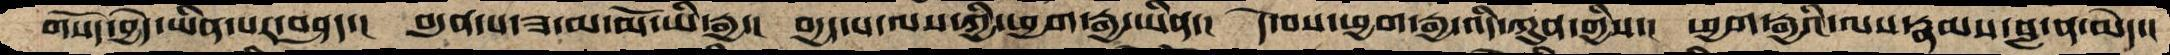གསོད་བྱེད་ཡིན་པར་བཤད་།  བདུན་པ་ཟ་མ་མོ་ཡི་རྒྱ་།  བདྱད་པ་ལས་ཀྱི་ཕྱག་རྒྱ་ཡིན་།  དེ་བས་ཕྱག་རྒྱ་འདི་ཀུན་གྱིས་།  ཕྱག་རྒྱའི་ལས་རྣམས་བླ་ན་མེད་།
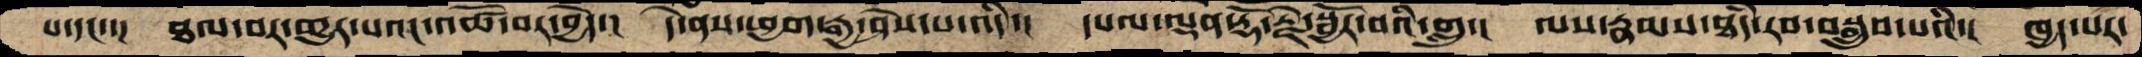པ་དང་་།  ཐལ་བར་གྱུར་པའང་འཚོ་བར་བྱེད་།  དེ་ནས་ཕྱག་རྒྱ་ཤེས་པ་འདི་།  དཔལ་ལྡན་རྡོ་རྗེ་སྦྱོར་བའི་གླུ་།  ལས་རྣམས་ཐཾད་རབ་བསྒྲུབ་པའི་།  ཁྱད་པར་
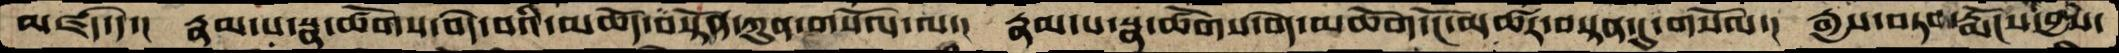མཛད་དེ་།  རྣམ་པ་སྣ་ཚོགས་བདེ་བའི་མཆོད་བསྟོན་ཀུན་གསོལ་ལ་།  རྣམ་པ་སྣ་ཚོགས་བདེ་མཆོག་ངོ་མཚར་བསྟན་དུ་གསོལ་།  རྒྱས་བཏབ་རྨོངས་བྱས་
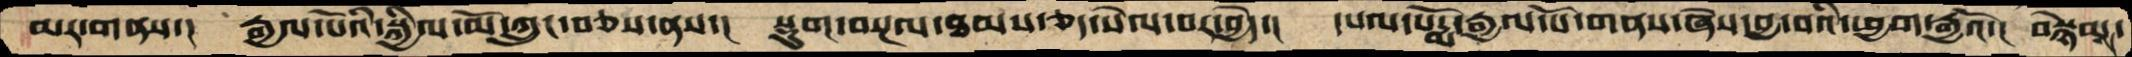མར་གནས་།  རྒྱལ་པོའི་སྐྱིལ་མོ་ཀྲུང་བཅས་ནས་།  སྡུག་བསྔལ་ཐམས་ཅད་སེལ་བར་བྱེད་།  དཔལ་པདྨོ་རྒྱལ་པོ་གནས་ཞེས་བྱ་བའི་ཕྱག་རྒྱའོ་།  བསྙེམས་
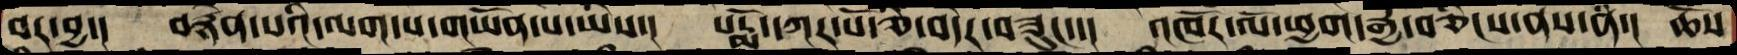བར་བྱ་།  བརྙན་པའི་ལག་པ་གཡོན་པ་ཡིས་།  པདྨོ་དཀར་པོ་ཅི་བདེར་བཟུང་་།  འཁོར་ལོ་ཕྱག་རྒྱ་བཅིངས་ནས་ནི་།  ཆོས
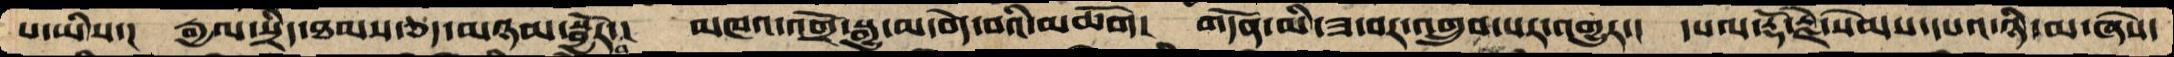པ་ཡིས་། རྒྱལ་སྲིད་ཐམས་ཅད་མཉམ་སྦྱོར་བ་། མཁའ་འགྲོ་སྒྱུ་མ་བདེ་བའི་མཆོག། གདོན་མི་ཟ་བར་འགྲུབ་པར་འགྱུར་། དཔལ་རྡོ་རྗེ་སེམས་དཔའ་ཉི་མ་ཞེས་
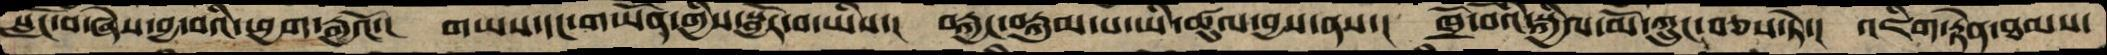སླིང་བ་ཞེས་བྱ་བའི་ཕྱག་རྒྱའོ་།  གཡས་དང་གཡོན་གྱིས་སྦྱོར་བ་ཡིས་།  བརྐྱང་བརྐུམ་པ་ཡི་ཚུལ་བྱས་ནས་།  ཁྲོ་བོའི་སྐྱིལ་མོ་ཀྲུང་བཅས་ཏེ་།  འཇིག་རྟེན་ཐམས་
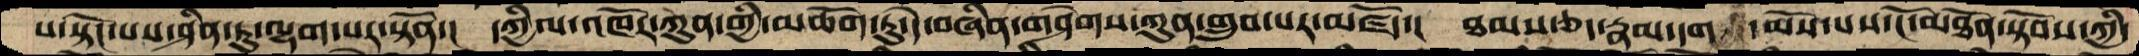པ་སྟོང་པས་ཤིན་ཏུ་ལྷག་པར་སྟོན་།  དཀྱིལ་འཁོར་ཀུན་གྱི་མཆོག་ཏུ་དེ་བཞིན་གཤེགས་ཀུན་གྲུབ་པར་མཛོད་།  ཐམས་ཅད་རྣམ་དག  ་མོས་པས་ངོ་མཐོན་སྟོབས་ཀྱི་
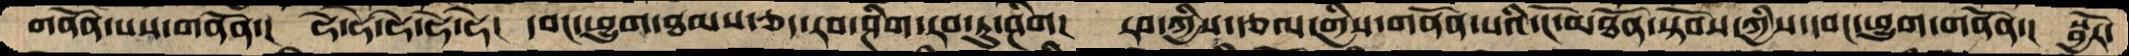གནོན་པས་གནོན་།  ཧེ་ཧེ་ཧེ་ཧེ་ཧེ།  དབང་ཕྱུག་ཐམས་ཅད་རབ་ཤིག་རབ་ཏུ་ཤིག།  རབ་ཀྱིས་རྩལ་གྱིས་གནོན་པའི་ངོ་མཐོན་སྟོབས་ཀྱིས་དབང་ཕྱུག་གནོན་།  སྦྱོར་
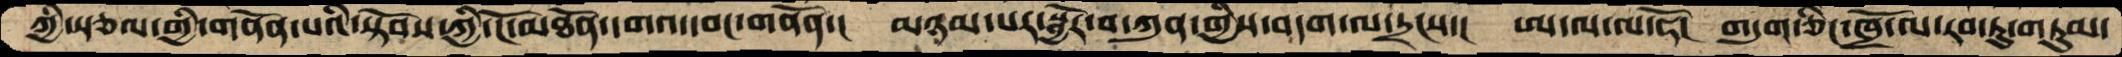ཀྱི་སྩལ་གྱི་གནོན་པའི་སྟོབས་ཀྱི་ངོ་མཐོན་དགའ་དབང་གནོན་།  མཉམ་པར་སྦྱོར་བ་ཀུན་གྱིས་བདག་ལ་དྲངས་།  ཨ་ལ་ལ་ཧོ།  གདུག་ཅིང་ཁྲོ་ལ་རབ་ཏུ་གཏུམ་
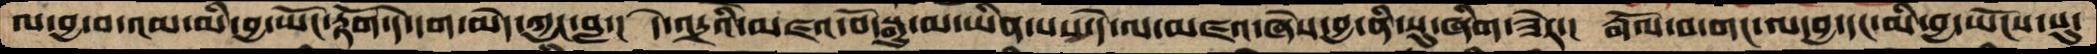ལ་བྱ་བ་འམ་མི་བྱ་ཡོང་རྟོག་དེ་དག་མེད་ཀྱང་བླ་།  དེ་འདྲའི་མཛའ་བོ་སྒྱུ་མ་ཡིན་པས་དེ་ལ་མཛའ་ཞེས་བྱ་ནི་སུ་ཞིག་ཟེར་།  རྒོལ་བ་གང་ལ་བྱ་དང་མི་བྱ་ཡོངས་སུ་
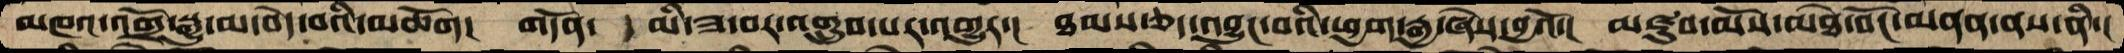མཁའ་འགྲོ་སྒྱུ་མ་བདེ་བའི་མཆོག། གདོན་  མི་ཟ་བར་འགྲུབ་པར་འགྱུར་། ཐམས་ཅད་འབྱུང་བའི་ཕྱག་རྒྱ་ཞེས་བྱའོ་། མཛུབ་མོས་མཐེ་བོང་མནན་ནས་ནི་།
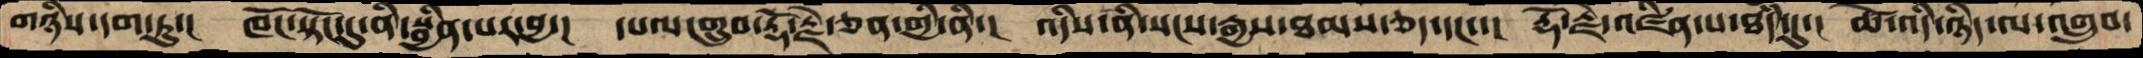གཉིས་དག་ཏུ་།  ཁོང་སྟོང་དུ་ནི་སྦྱིན་པར་བྱ་།  དཔལ་གྲུབ་རྡོ་རྗེ་ཅན་གྱི་ནི་།  འདིས་ནི་སངས་རྒྱས་ཐམས་ཅད་དང་་།  རྡོ་རྗེ་འཛིན་པ་ཐདཾ་དུ་།  ཚེ་འདི་ཉིད་ལ་འགྲུབ་
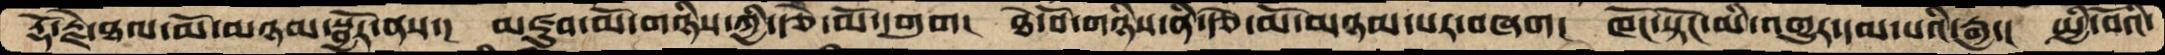རྡོ་རྗེ་ཐལ་མོ་མཉམ་སྦྱོར་ནས་།  མཛུབ་མོ་གཉིས་ཀྱི་རྩེ་མོ་དགུག།  ཐེ་བོ་གཉིས་ནི་རྩེ་མོ་མཉམ་པར་བཞག།  ཁོང་སྟོང་མི་འགྱུར་དམ་པའི་རྒྱ་།  སྤྱི་བོའི་
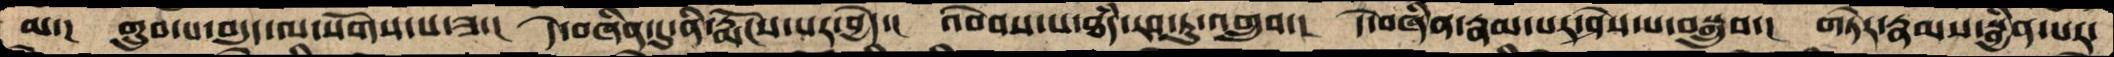མ་།  གྲུབ་པ་བདུད་ལ་སོགས་པ་ཟ་།  དེ་བཞིན་དུ་ནི་རྨོངས་པར་བྱེད་།  འབེབས་པ་ཐདཾ་རབ་ཏུ་འགྲུབ་།  དེ་བཞིན་རྣམ་པར་ཤེས་པ་བསྒྲུབ་།  གཏེར་རྣམས་སྦྱིན་པར་
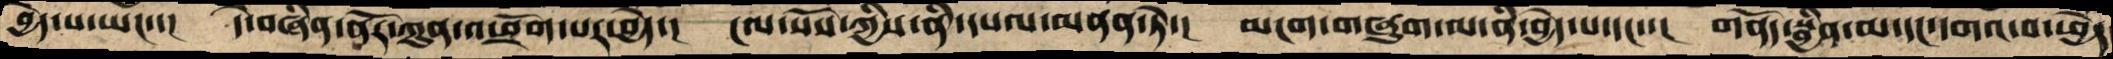བྱེད་པ་ཡང་་།  དེ་བཞིན་ནོར་ཀུན་འཕྲོག་པར་བྱེད་།  ངལ་སོས་ཀྱིས་ནི་དཔལ་མནན་ཏེ་།  མངག་གཞུག་ལ་ནི་བྱེད་པ་དང་་།  གནོད་སྦྱིན་མ་དང་དགའ་བ་ཕྱེད
